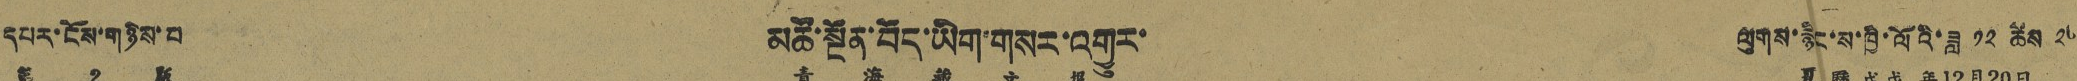དཔར་ངོས་གཉིས་པ མཚོ་སྔོན་བོད་ཡིག་གསར་འགྱུར་ ལུགས་སྙིང་ས་ཁྱི་ལོའི་ཟླ ༡༢ ཚེས ༢༠
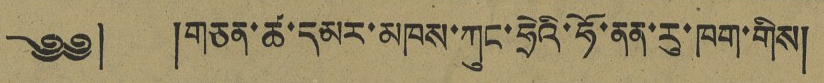༄༅། །གཅན་ཚ་དམར་མཁས་ཀུང་ཧྲེའི་ཧོ་ནན་རུ་ཁག་གིས།
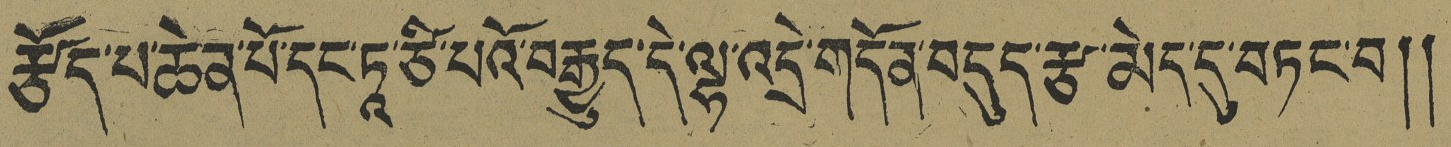རྩོད་པ་ཆེན་པོ་དང་ཏཱ་ཙི་པའོ་བརྒྱུད་དེ་ལྷ་འདྲེ་གདོན་བདུད་རྩ་མེད་དུ་བཏང་བ༎
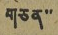གཅན་་
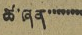ཚ་ཞན་་་་་་་་
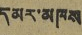དམར་མཁས
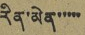རིན་མེན་་་་་
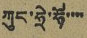ཀུང་ཧྲེ་ཧོ་་་་
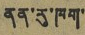ནན་རུ་ཁག་
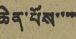ཆེན་པོས་་་་་
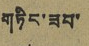གཏིང་ཟབ་
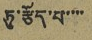ཏུ་རྩོད་པ་་་་
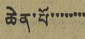ཆེན་པོ་་་་་་་་
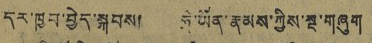དར་ཁྱབ་བྱེད་སྐབས། ཧྲེ་ཡོན་རྣམས་ཀྱིས་སྔ་གཞུག
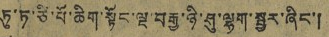ཏུ་ཏ་ཙི་པོ་ཆིག་སྟོང་ལྔ་བརྒྱ་ཉི་ཤུ་ལྷག་སྦྱར་ཞིང་།
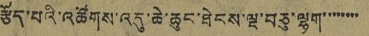རྩོད་པའི་འཚོགས་འདུ་ཆེ་ཆུང་ཐེངས་ལྔ་བཅུ་ལྷག་་་་་་་་
